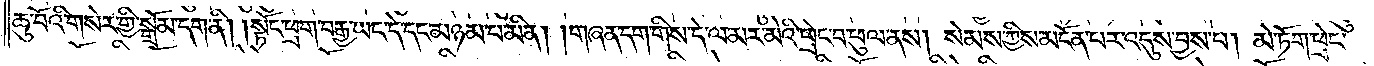ཆུ་བོའི་གསེར་གྱི་སྒྲོམ་དག་ནི། །སྟོང་ཕྲག་བརྒྱ་ཡང་དེ་དང་མཉམ་པ་མིན། །གཞན་དག་གིས་དེ་ལ་མར་མེའི་ཕྲེང་བ་ཕུལ་ནས། སེམས་ཀྱིས་མངོན་པར་འདུས་བྱས་པ། མེ་ཏོག་ཕྲེང་
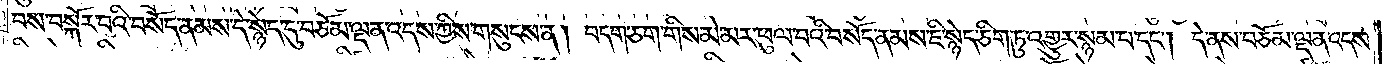བས་བསྐོར་བའི་བསོད་ནམས་དེ་སྙེད་དུ་བཅོམ་ལྡན་འདས་ཀྱིས་གསུངས་ན། བདག་ཅག་གིས་མེ་མར་ཕུལ་བའི་བསོད་ནམས་ཇི་སྙེད་ཅིག་ཏུ་འགྱུར་སྙམ་པ་དང༌། དེ་ནས་བཅོམ་ལྡན་འདས་
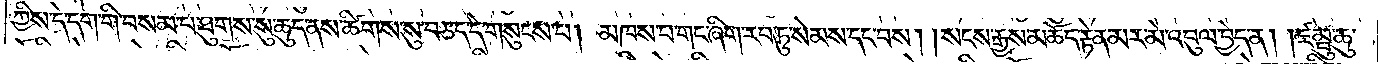ཀྱིས་དེ་དག་གི་བསམ་པ་ཐུགས་སུ་ཆུད་ནས་ཚིགས་སུ་བཅད་དེ་གསུངས་པ། མཁས་པ་གང་ཞིག་རབ་ཏུ་སེམས་དང་བས། །སངས་རྒྱས་མཆོད་རྟེན་མར་མེ་འབུལ་བྱེད་ན། །ཛམྦུ་ཆུ་
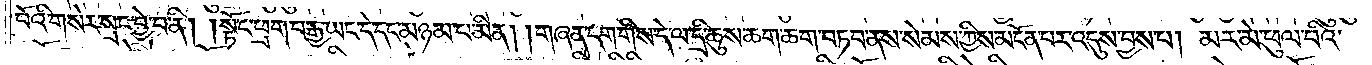བོའི་གསེར་སྲང་བྱེ་བ་ནི། །སྟོང་ཕྲག་བརྒྱ་ཡང་དེ་དང་མཉམ་པ་མིན། །གཞན་དག་གིས་དེ་ལ་དྲི་ཆུས་ཆག་ཆག་བཏབ་ནས་སེམས་ཀྱིས་མངོན་པར་འདུས་བྱས་པ། མར་མེ་ཕུལ་བའི་
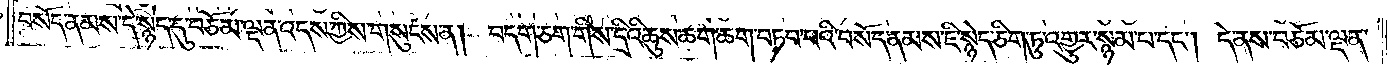བསོད་ནམས་དེ་སྙེད་དུ་བཅོམ་ལྡན་འདས་ཀྱིས་གསུངས་ན། བདག་ཅག་གིས་དྲིའི་ཆུས་ཆག་ཆག་བཏབ་པའི་བསོད་ནམས་ཇི་སྙེད་ཅིག་ཏུ་འགྱུར་སྙམ་པ་དང༌། དེ་ནས་བཅོམ་ལྡན་
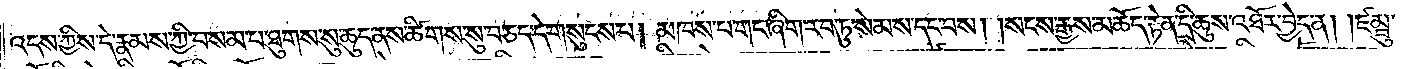འདས་ཀྱིས་དེ་རྣམས་ཀྱི་བསམ་པ་ཐུགས་སུ་ཆུད་ནས་ཚིགས་སུ་བཅད་དེ་གསུངས་པ། མཁས་པ་གང་ཞིག་རབ་ཏུ་སེམས་དང་བས། །སངས་རྒྱས་མཆོད་རྟེན་དྲི་ཆུས་འཐོར་བྱེད་ན། །ཛམྦུ་
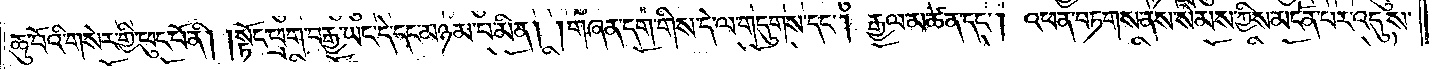ཆུ་བོའི་གསེར་གྱི་ཕུང་པོ་ནི། །སྟོང་ཕྲག་བརྒྱ་ཡང་དེ་དང་མཉམ་པ་མིན། །གཞན་དག་གིས་དེ་ལ་གདུགས་དང༌། རྒྱལ་མཚན་དང༌། འཕན་བཏགས་ནས་སེམས་ཀྱིས་མངོན་པར་འདུས་
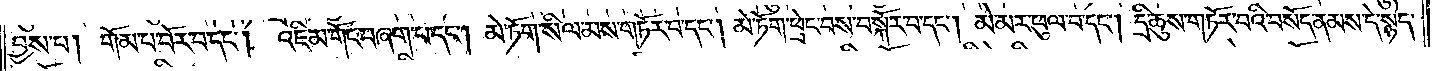བྱས་པ། གོམ་པ་བོར་བ་དང༌། འཇིམ་གོང་བཞག་པ་དང༌། མེ་ཏོག་སིལ་མས་གཏོར་བ་དང༌། མེ་ཏོག་ཕྲེང་བས་བསྐོར་བ་དང༌། མེ་མར་ཕུལ་བ་དང༌། དྲི་ཆུས་གཏོར་བའི་བསོད་ནམས་དེ་སྙེད་
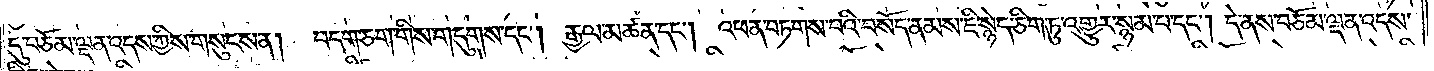དུ་བཅོམ་ལྡན་འདས་ཀྱིས་གསུངས་ན། བདག་ཅག་གིས་གདུགས་དང༌། རྒྱལ་མཚན་དང༌། འཕན་བཏགས་པའི་བསོད་ནམས་ཇི་སྙེད་ཅིག་ཏུ་འགྱུར་སྙམ་པ་དང༌། དེ་ནས་བཅོམ་ལྡན་འདས་
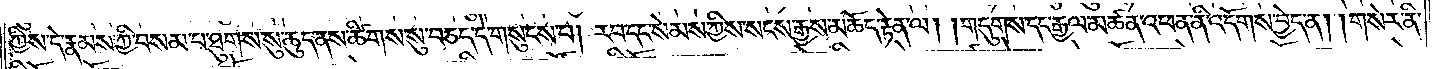ཀྱིས་དེ་རྣམས་ཀྱི་བསམ་པ་ཐུགས་སུ་ཆུད་ནས་ཚིགས་སུ་བཅད་དེ་གསུངས་པ། རབ་དང་སེམས་ཀྱིས་སངས་རྒྱས་མཆོད་རྟེན་ལ། །གདུགས་དང་རྒྱལ་མཚན་འཕན་ནི་འདོགས་བྱེད་ན། །གསེར་ནི་
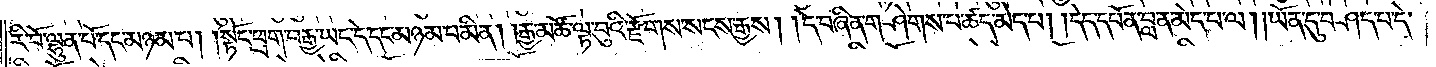རི་བོ་ལྷུན་པོ་དང་མཉམ་པ། །སྟོང་ཕྲག་བརྒྱ་ཡང་དེ་དང་མཉམ་པ་མིན། །རྒྱ་མཚོ་ལྟ་བུའི་རྫོགས་སངས་རྒྱས། །དེ་བཞིན་གཤེགས་པ་ཚད་མེད་པ། །དེད་དཔོན་བླ་ན་མེད་པ་ལ། །ཡོན་དུ་བཤད་པ་དེ་
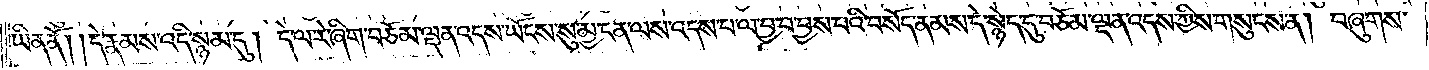ཡིན་ནོ། །དེ་རྣམས་འདི་སྙམ་དུ། དེ་ལ་རེ་ཞིག་བཅོམ་ལྡན་འདས་ཡོངས་སུ་མྱ་ངན་ལས་འདས་པ་ལ་བྱ་བ་བྱས་པའི་བསོད་ནམས་དེ་སྙེད་དུ་བཅོམ་ལྡན་འདས་ཀྱིས་གསུངས་ན། བཞུགས་
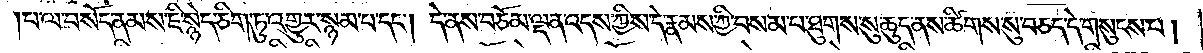།པ་ལ་བསོད་ནམས་ཇི་སྙེད་ཅིག་ཏུ་འགྱུར་སྙམ་པ་དང༌། དེ་ནས་བཅོམ་ལྡན་འདས་ཀྱིས་དེ་རྣམས་ཀྱིས་བསམ་པ་ཐུགས་སུ་ཆུད་ནས་ཚིགས་སུ་བཅད་དེ་གསུངས་པ།
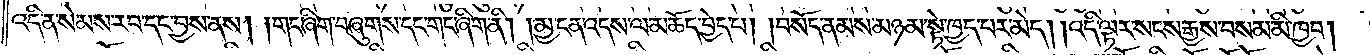འདི་ན་སེམས་རབ་དང་བྱས་ནས། །གང་ཞིག་བཞུགས་དང་གང་ཞིག་ནི། །མྱ་ངན་འདས་ལ་མཆོད་བྱེད་པ། །བསོད་ནམས་མཉམ་སྟེ་ཁྱད་པར་མེད། །འདི་ལྟར་སངས་རྒྱས་བསམ་མི་ཁྱབ། །
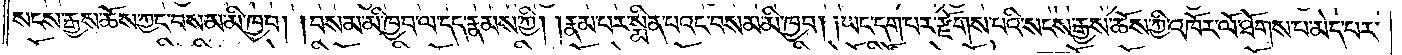སངས་རྒྱས་ཆོས་ཀྱང་བསམ་མི་ཁྱབ། །བསམ་མི་ཁྱབ་ལ་དད་རྣམས་ཀྱི། །རྣམ་པར་སྨིན་པའང་བསམ་མི་ཁྱབ། །ཡང་དག་པར་རྫོགས་པའི་སངས་རྒྱས་ཆོས་ཀྱི་འཁོར་ལོ་ཐོགས་པ་མེད་པར་
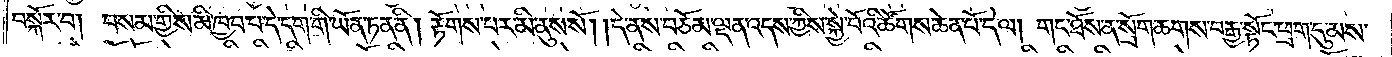བསྐོར་བ། བསམ་གྱིས་མི་ཁྱབ་པ་དེ་དག་གི་ཡོན་ཏན་ནི། རྟོགས་པར་མི་ནུས་སོ། །དེ་ནས་བཅོམ་ལྡན་འདས་ཀྱིས་སྐྱེ་བོའི་ཚོགས་ཆེན་པོ་དེ་ལ། གང་ཐོས་ན་སྲོག་ཆགས་བརྒྱ་སྟོང་ཕྲག་དུ་མས་
